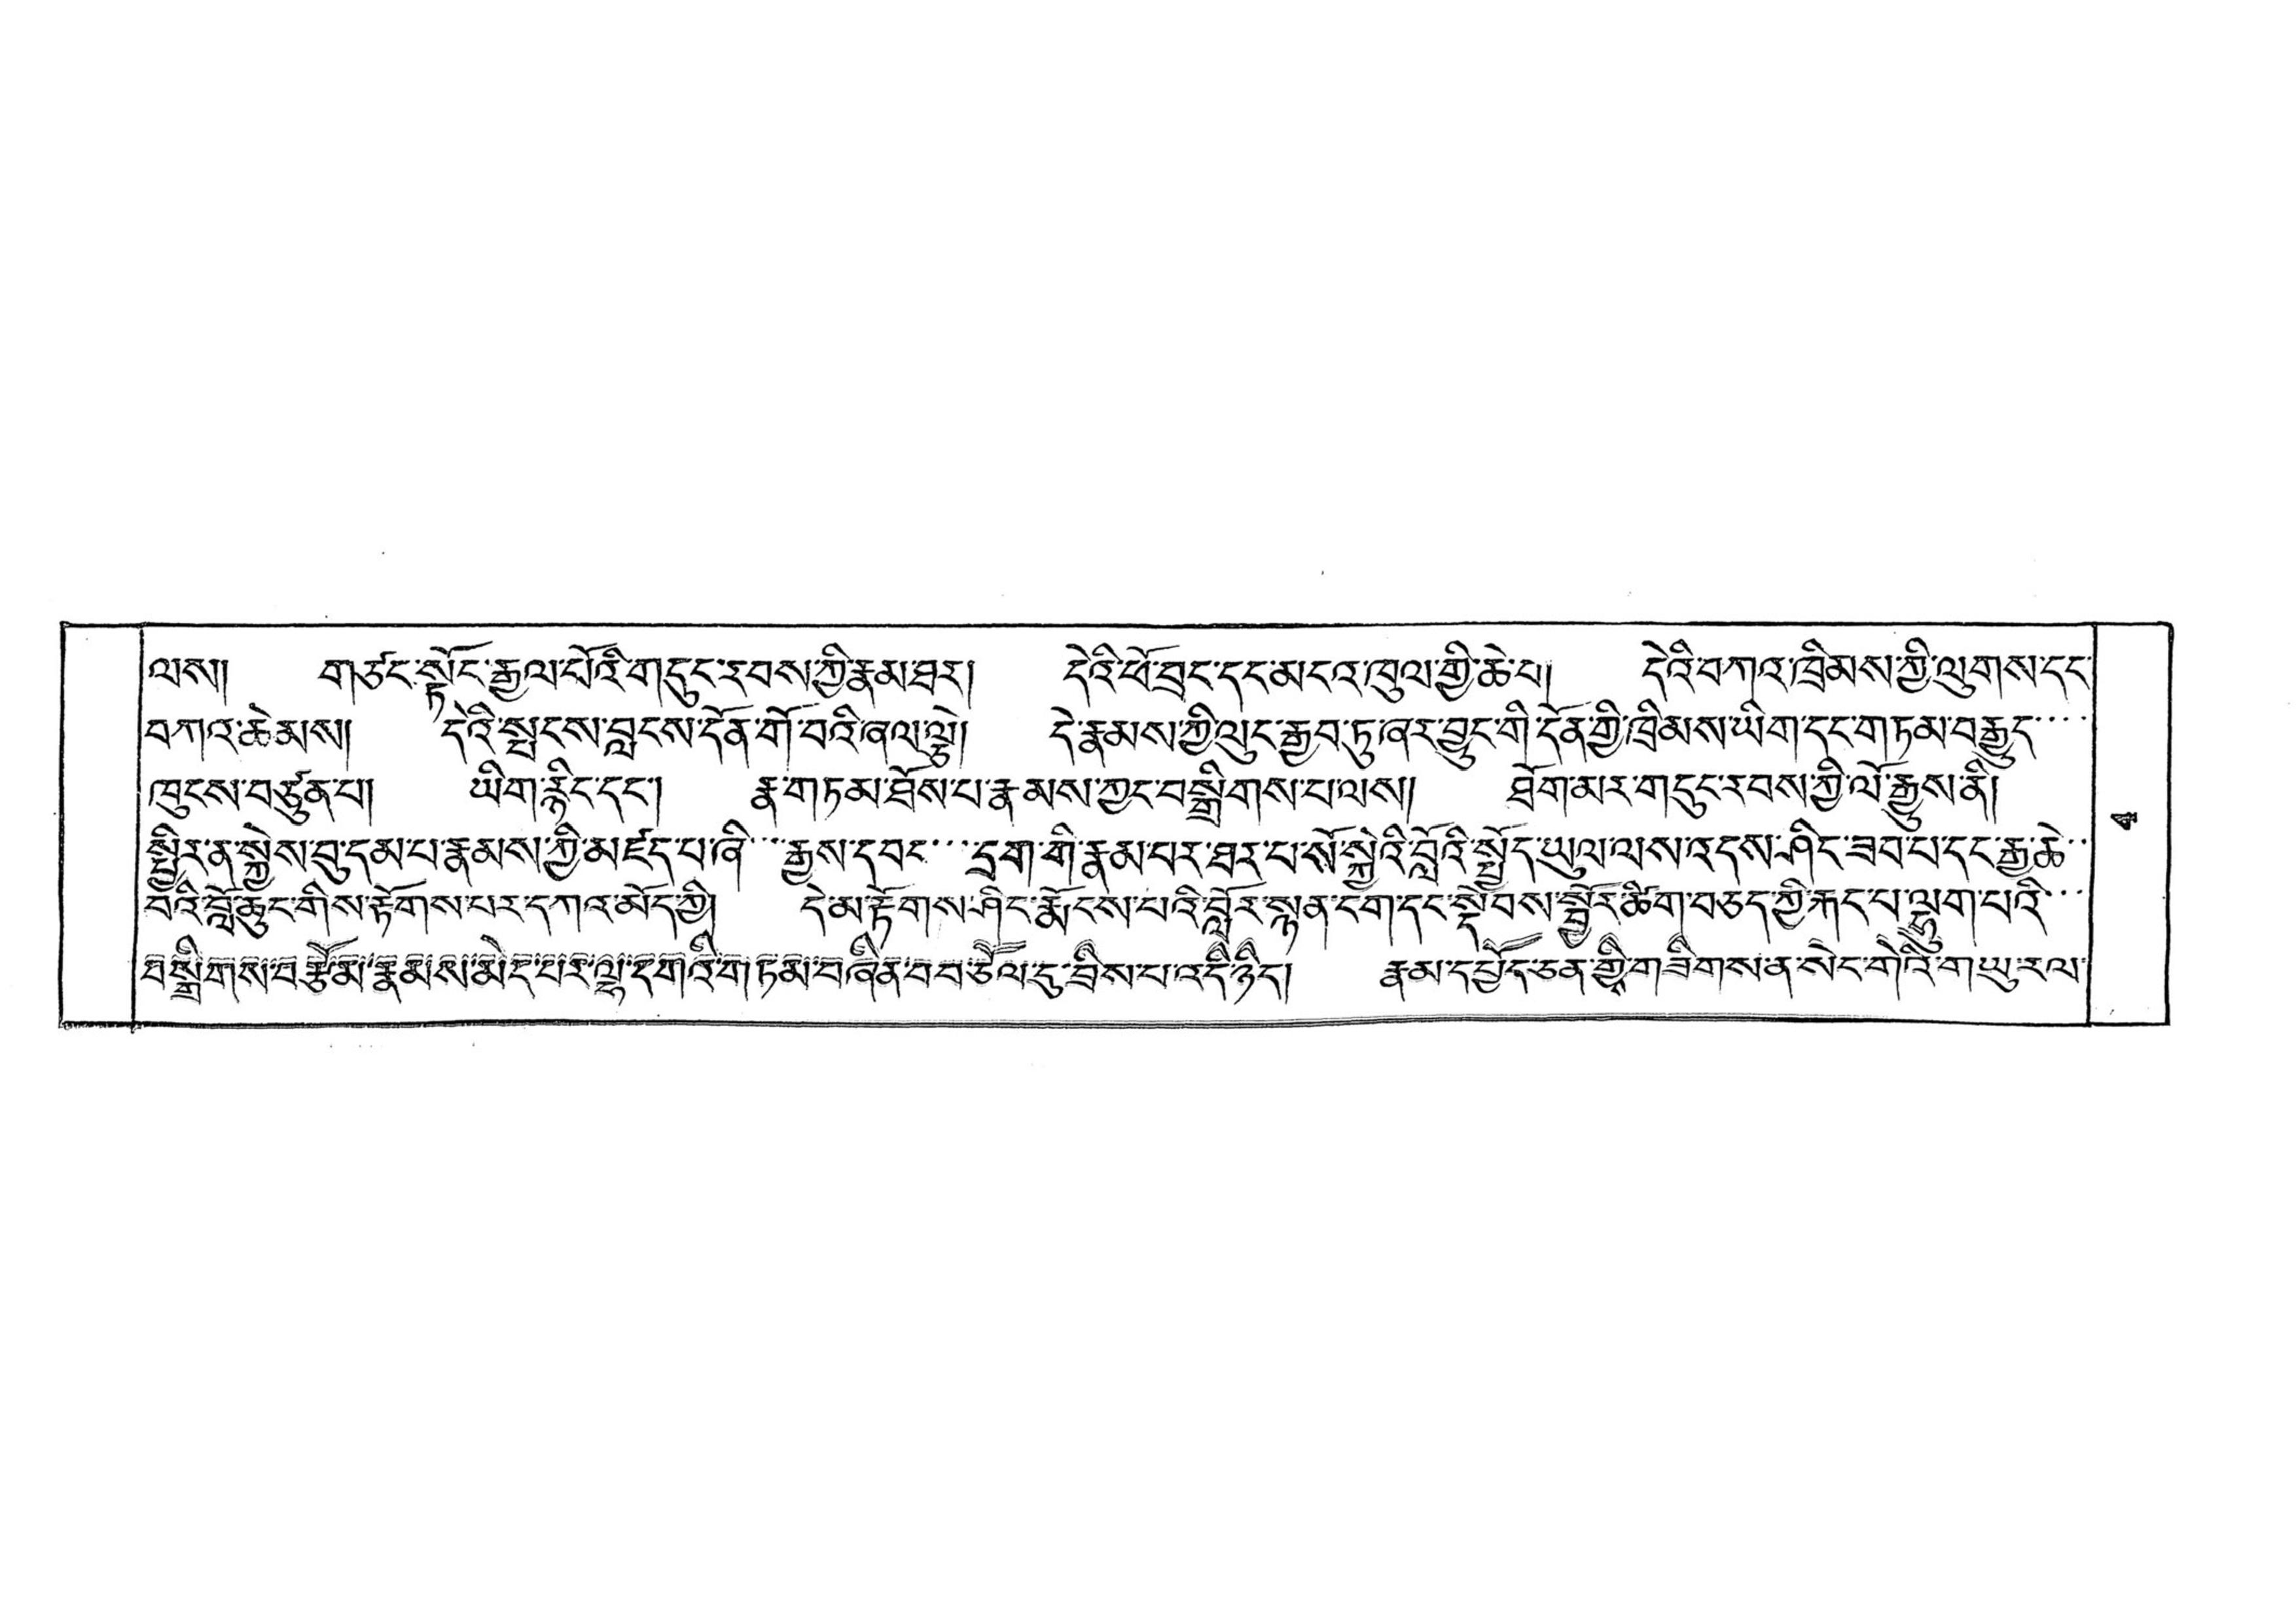ལས། གཙང་སྟོད་རྒྱལ་པོའི་གདུང་རབས་ཀྱི་རྣམ་ཐར། དེའི་ཕོ་བྲང་དང་མངའ་ཁུལ་གྱི་ཆེ་བ། དེའི་བཀའ་ཁྲིམས་གྱི་ལུགས་དང་
བཀའ་ཆེམས། དེའི་སྤངས་བླངས་དོན་གོ་བའི་ཞལ་ལྕེ། དེ་རྣམས་ཀྱི་ལུང་རྒྱབ་ཏུ་ཞར་བྱུང་གི་དོན་གྱི་ཁྲིམས་ཡིག་དང་གཏམ་བརྒྱུད་་་་
ཁུངས་བཙུན་པ། ཡིག་རྙིང་དང་། རྣ་གཏམ་ཐོས་པ་རྣམས་ཀྱང་བསྒྲིགས་པ་ལས། ཐོག་མར་གདུང་རབས་ཀྱི་ལོ་རྒྱུས་ནི།
སྤྱིར་ན་སྐྱེས་བུ་དམ་པ་རྣམས་ཀྱི་མཛད་པ་ཞི་་་རྒྱས་དབང་་་དྲག་གི་རྣམ་པར་ཐར་པ་སོ་སྐྱེའི་བློའི་སྤྱོད་ཡུལ་ལས་འདས་ཤིང་ཟབ་པ་དང་རྒྱ་ཆེ་་
བའི་བློ་ཆུང་གིས་རྟོགས་པར་དཀའ་མོད་ཀྱི། དེ་མ་རྟོགས་ཤིང་རྨོངས་པའི་བློར་སྙན་ངག་དང་སྡེབས་སྦྱོར་ཚིག་བཅད་ཀྱི་རྐང་པ་ལྷུག་པའི་་་
བ་སྒྲིགས་བརྩོམ་རྣམས་མེད་པར་ལྷ་དགའི་གཏམ་བཞིན་བབ་ཅོལ་དུ་བྲིས་པ་འདི་ཉིད། རྣམ་དཔྱོད་ཅན་གྱིས་གཟིགས་ན་སེང་གེའི་གཡུ་རལ་
